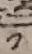༡
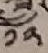༡༢
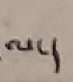ལ་།
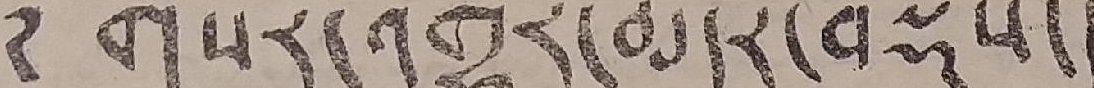༅ གསར་འགྱུར་མདོར་བསྡུས་།
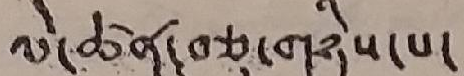ལེ་ཚན་བཅུ་གཉིས་པ་
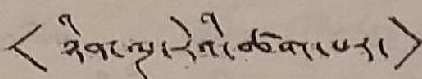<ཉིན་ལྔ་རེའི་ཚགས་པར་>
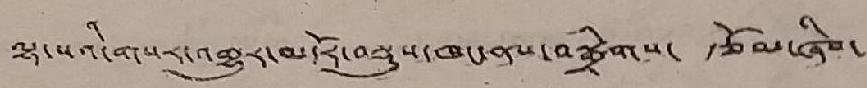ལྷ་སའི་གསར་འགྱུར་མདོར་བསྡུས་ཁང་ནས་བསྒྲིགས་ རྩོམ་ཞིབ་
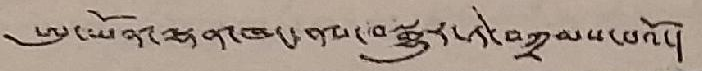ཨུ་ཡོན་ལྷན་ཁང་ནས་བསྒྱུར་ཏེ་བཀྲམས་པའོ་།
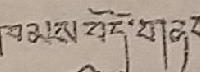ཁམས་བོད་གནས་
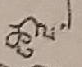ཚུལ་
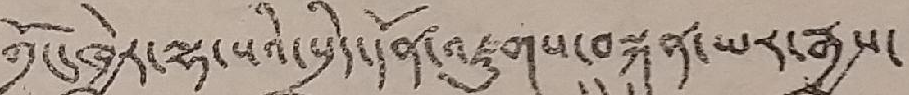གྲོང་ཁྱེར་ལྷ་སའི་སྲིད་དོན་འཛུགས་བསྐྲུན་ཡར་རྒྱས་
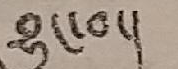བྱུང་བ་།
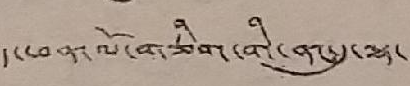ད་ཕན་ལོ་གཅིག་གི་ནང་དུ་ལྷ་
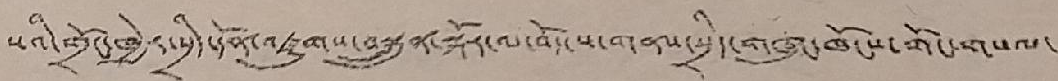སའི་གྲོང་ཁྱེར་སྲིད་དོན་འཛུགས་བསྐྲུན་སྐོར་ལ་བོད་ས་གནས་སྲིད་གཞུང་ཁོངས་གོང་གསལ་
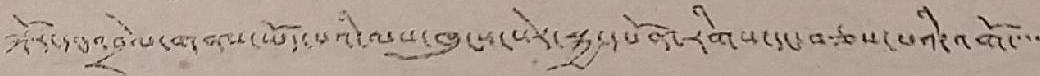སྐོར་དང་འབྲེལ་གནས་ཡོད་པའི་ལས་ཁུངས་སེར་སྐྱ་དཔོན་རིགས་དང་བཅས་པའི་འགོ་་་་
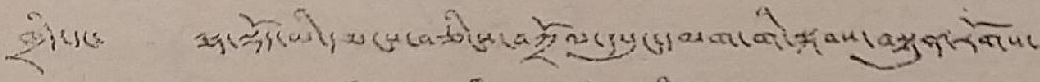ཁྲིད་དང་ ལྟ་སྡོད་མི་དམངས་བཅིངས་བཀྲོལ་དཔུང་དམག་གི་སྐབས་བསྟུན་རོགས་
